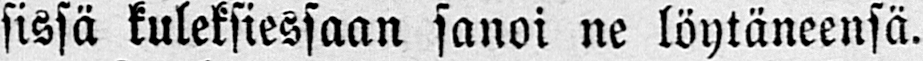sissä kuleksiessaan sanoi ne löytäneensä.
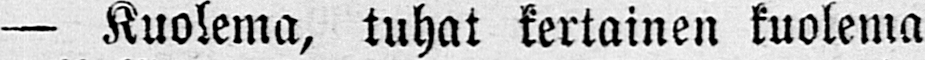— Kuolema, tuhat kertainen kuolema
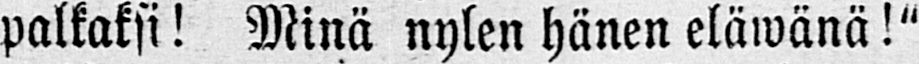palkaksi! Minä nylen hänen eläwänä!"
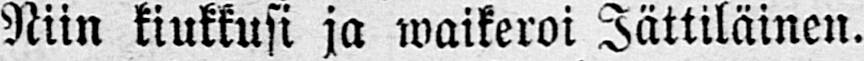Niin kiukkusi ja waikeroi Jättiläinen.
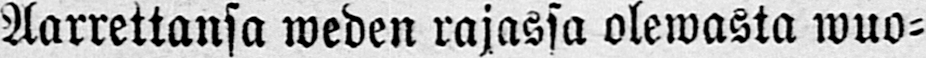Aarrettansa weden rajassa olewasta wuo-
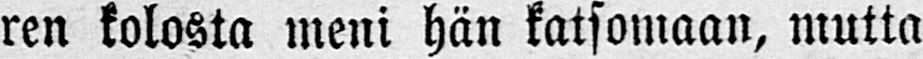ren kolosta meni hän katsomaan, mutta
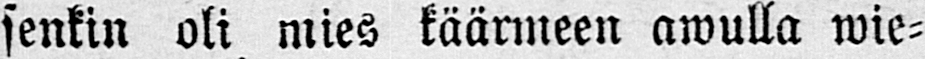senkin oli mies käärmeen awulla wie-
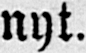nyt.
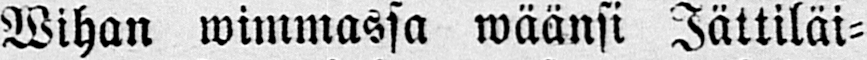Wihan wimmassa wäänsi Jättiläi-
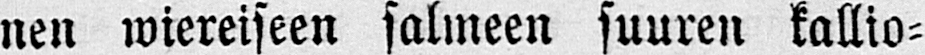nen wiereiseen salmeen suuren kallio-
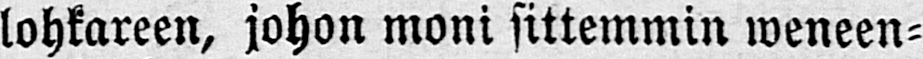lohkareen, johon moni sittemmin weneen-
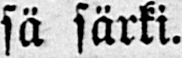sä särki.
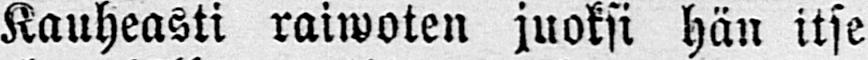Kauheasti raiwoten juoksi hän itse
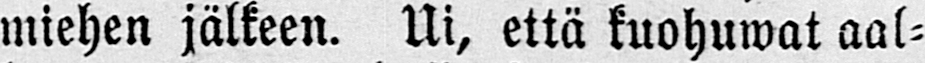miehen jälkeen. Ui, että kuohuwat aal-
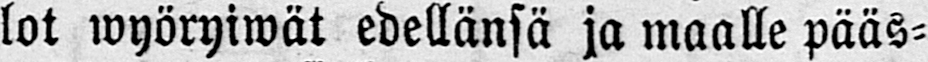lot wyöryiwät edellänsä ja maalle pääs-
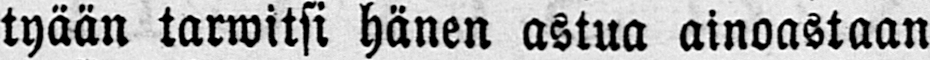tyään tarwitsi hänen astua ainoastaan
